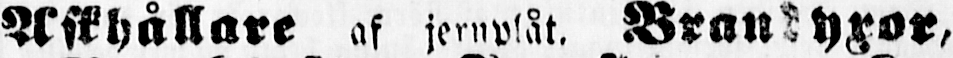Askhållare af jernplåt, Brandyxor,
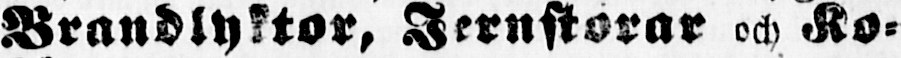Brandlyktor, Jernstorar och Ko-
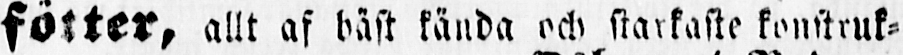fötter, allt af bäst kända och starkaste konstruk-
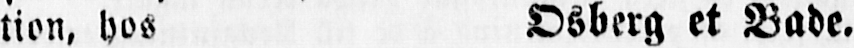tion, hos Osberg et Bade.
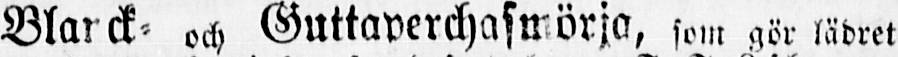Blarck- och Guttaperchasmörja, som gör lädret
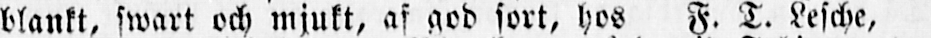blankt, swart och mjukt, af god sort, hos F. T. Lesche,
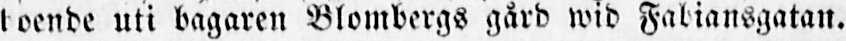boende uti bagaren Blombergs gård wid Fabiansgatan.
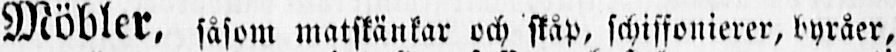Möbler, såsom matskänkar och skåp, schiffonierer, byråer,
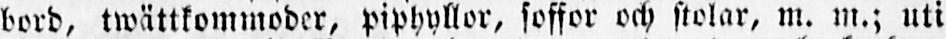bord, twåttkommoder, piphyllor, soffor och stolar, m. m.; uti
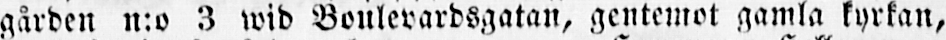gården n:o 3 wid Boulevardsgatan, gentemot gamla kyrkan,
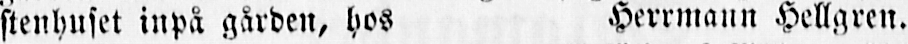stenhuset inpå gården, hos Herrmann Hellgren.
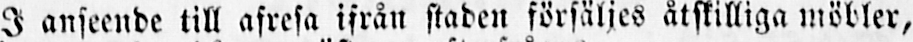I anseende till afresa ifrån staden försäljes åtskilliga möbler,
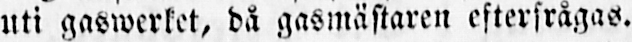uti gaswerket, då gasmästaren efterfrågas.
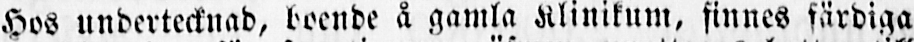Hos undertecknad, boende å gamla Klinikum, finnes färdiga
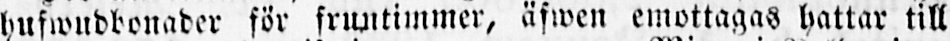hufwudbonader för fruntimmer, äfwen emottagas hattar till
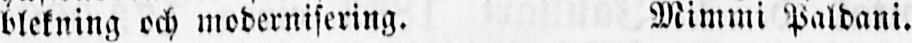blekning ock modernisering. Mimmi Paldani.
